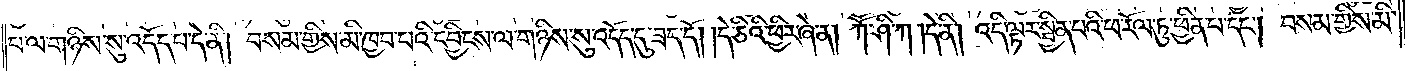པ་ལ་གཉིས་སུ་འདོད་པ་ནི། བསམ་གྱིས་མི་ཁྱབ་པའི་དབྱིངས་ལ་གཉིས་སུ་འདོད་དུ་ཟད་དོ། །དེ་ཅིའི་ཕྱིར་ཞེ་ན། ཀཽ་ཤི་ཀ །དེ་ནི། འདི་ལྟར་སྦྱིན་པའི་ཕ་རོལ་ཏུ་ཕྱིན་པ་དང༌། བསམ་གྱིས་མི་
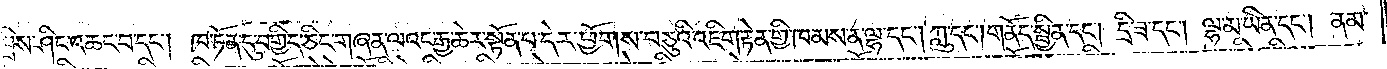བྲིས་ཤིང་འཆང་བ་དང༌། ཁ་ཏོན་དུ་བགྱིད་ཅིང་གཞན་ལའང་རྒྱ་ཆེར་སྟོན་པ་དེར་ཕྱོགས་བཅུའི་འཇིག་རྟེན་གྱི་ཁམས་ན་ལྷ་དང༌། ཀླུ་དང༌། གནོད་སྦྱིན་དང༌། དྲི་ཟ་དང༌། ལྷ་མ་ཡིན་དང༌། ནམ་
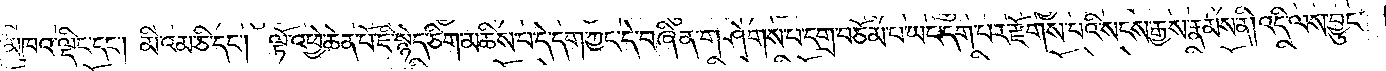མཁའ་ལྡིང་དང༌། མི་འམ་ཅི་དང༌། ལྟོ་འཕྱེ་ཆེན་པོ་ཇི་སྙེད་ཅིག་མཆིས་པ་དེ་དག་ཀྱང་དེ་བཞིན་གཤེགས་པ་དགྲ་བཅོམ་པ་ཡང་དག་པར་རྫོགས་པའི་སངས་རྒྱས་རྣམས་ནི། འདི་ལས་བྱུང་
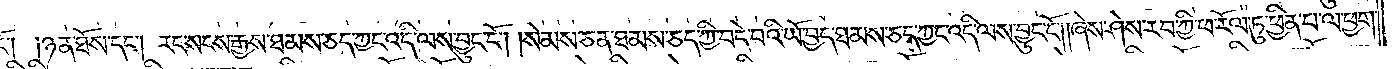ངོ༌༑ ༑ཉན་ཐོས་དང༌། རང་སངས་རྒྱས་ཐམས་ཅད་ཀྱང་འདི་ལས་བྱུང་ངོ༌། །སེམས་ཅན་ཐམས་ཅད་ཀྱི་བདེ་བའི་ཡོ་བྱད་ཐམས་ཅད་ཀྱང་འདི་ལས་བྱུང་ངོ༌། །ཞེས་ཤེས་རབ་ཀྱི་ཕ་རོལ་ཏུ་ཕྱིན་པ་ལ་ཕྱག་
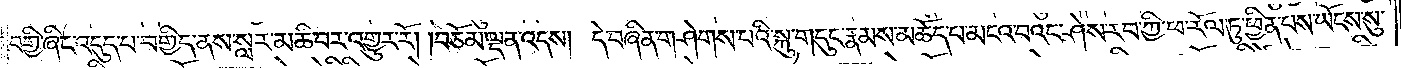བགྱི་ཞིང་འདུད་པ་བགྱིས་ནས་སླར་མཆི་བར་འགྱུར་རོ། །བཅོམ་ལྡན་འདས། དེ་བཞིན་གཤེགས་པའི་སྐུ་གདུང་རྣམས་མཆོད་པ་མངའ་བའང་ཤེས་རབ་ཀྱི་ཕ་རོལ་ཏུ་ཕྱིན་པས་ཡོངས་སུ་
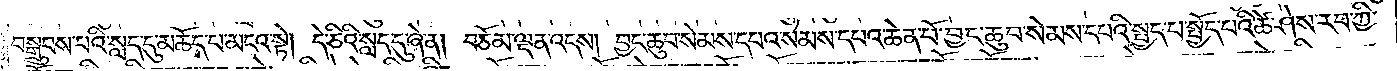བསྒྲུབས་པའི་སླད་དུ་མཆོད་པ་མངའ་སྟེ། དེ་ཅིའི་སླད་དུ་ཞེ་ན། བཅོམ་ལྡན་འདས། བྱང་ཆུབ་སེམས་དཔའ་སེམས་དཔའ་ཆེན་པོ་བྱང་ཆུབ་སེམས་དཔའི་སྤྱད་པ་སྤྱོད་པའི་ཚེ་ཤེས་རབ་ཀྱི་
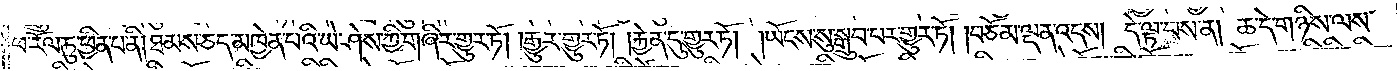ཕ་རོལ་ཏུ་ཕྱིན་པ་ནི། ཐམས་ཅད་མཁྱེན་པའི་ཡེ་ཤེས་ཀྱི་གཞིར་གྱུར་ཏོ། །རྒྱུར་གྱུར་ཏོ། །རྐྱེན་དུ་གྱུར་ཏོ། །ཡོངས་སུ་བསྒྲུབ་པར་གྱུར་ཏོ། །བཅོམ་ལྡན་འདས། དེ་ལྟ་བས་ན། ཆ་དེ་གཉིས་ལས་
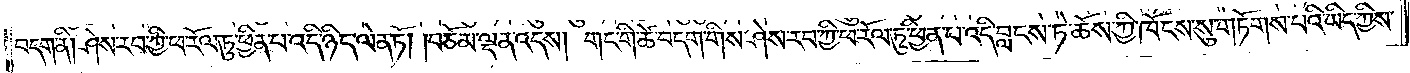བདག་ནི། ཤེས་རབ་ཀྱི་ཕ་རོལ་ཏུ་ཕྱིན་པ་འདི་ཉིད་ལེན་ཏོ། །བཅོམ་ལྡན་འདས། གང་གི་ཚེ་བདག་གིས་ཤེས་རབ་ཀྱི་ཕ་རོལ་ཏུ་ཕྱིན་པ་འདི་བླངས་ཏེ་ཆོས་ཀྱི་ཁོངས་སུ་གཏོགས་པའི་ཡིད་ཀྱིས་
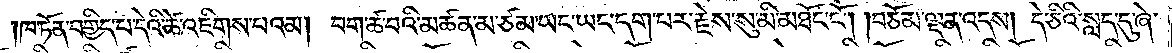ཁ་ཏོན་བགྱིད་པ་དེའི་ཚེ་འཇིགས་པའམ། བག་ཚ་བའི་མཚན་མ་ཙམ་ཡང་ཡང་དག་པར་རྗེས་སུ་མི་མཐོང་ངོ༌། །བཅོམ་ལྡན་འདས། དེ་ཅིའི་སླད་དུ་ཞེ་
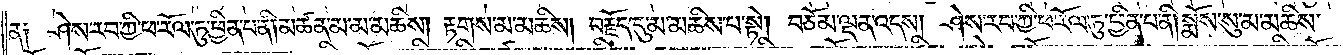ན༑ ཤེས་རབ་ཀྱི་ཕ་རོལ་ཏུ་ཕྱིན་པ་ནི་མཚན་མ་མ་མཆིས། རྟགས་མ་མཆིས། བརྗོད་དུ་མ་མཆིས་པ་སྟེ། བཅོམ་ལྡན་འདས། ཤེས་རབ་ཀྱི་ཕ་རོལ་ཏུ་ཕྱིན་པ་ནི་སྨོས་སུ་མ་མཆིས་
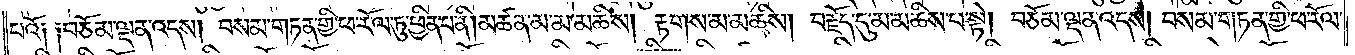པའོ༑ ༑བཅོམ་ལྡན་འདས། བསམ་གཏན་གྱི་ཕ་རོལ་ཏུ་ཕྱིན་པ་ནི་མཚན་མ་མ་མཆིས། རྟགས་མ་མཆིས། བརྗོད་དུ་མ་མཆིས་པ་སྟེ། བཅོམ་ལྡན་འདས། བསམ་གཏན་གྱི་ཕ་རོལ་
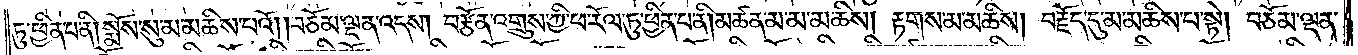ཏུ་ཕྱིན་པ་ནི། སྨོས་སུ་མ་མཆིས་པའོ། །བཅོམ་ལྡན་འདས། བརྩོན་འགྲུས་ཀྱི་ཕ་རོལ་ཏུ་ཕྱིན་པ་ནི། མཚན་མ་མ་མཆིས། རྟགས་མ་མཆིས། བརྗོད་དུ་མ་མཆིས་པ་སྟེ། བཅོམ་ལྡན་
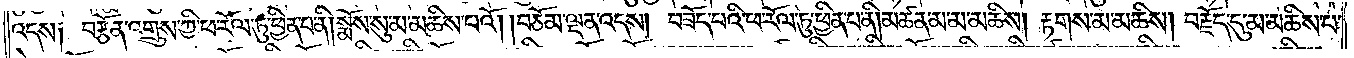འདས༑ བརྩོན་འགྲུས་ཀྱི་ཕ་རོལ་ཏུ་ཕྱིན་པ་ནི་སྨོས་སུ་མ་མཆིས་པའོ། །བཅོམ་ལྡན་འདས། བཟོད་པའི་ཕ་རོལ་ཏུ་ཕྱིན་པ་ནི་མཚན་མ་མ་མཆིས། རྟགས་མ་མཆིས། བརྗོད་དུ་མ་མཆིས་པ་
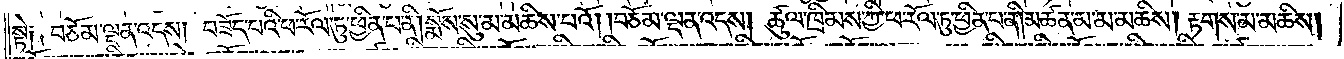སྟེ༑ བཅོམ་ལྡན་འདས། བཟོད་པའི་ཕ་རོལ་ཏུ་ཕྱིན་པ་ནི། སྨོས་སུ་མ་མཆིས་པའོ། །བཅོམ་ལྡན་འདས། ཚུལ་ཁྲིམས་ཀྱི་ཕ་རོལ་ཏུ་ཕྱིན་པ་ནི་མཚན་མ་མ་མཆིས། རྟགས་མ་མཆིས།
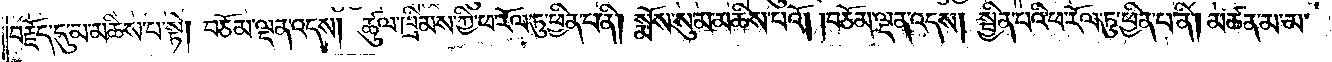བརྗོད་དུ་མ་མཆིས་པ་སྟེ། བཅོམ་ལྡན་འདས། ཚུལ་ཁྲིམས་ཀྱི་ཕ་རོལ་ཏུ་ཕྱིན་པ་ནི། སྨོས་སུ་མ་མཆིས་པའོ། །བཅོམ་ལྡན་འདས། སྦྱིན་པའི་ཕ་རོལ་ཏུ་ཕྱིན་པ་ནི། མཚན་མ་མ་
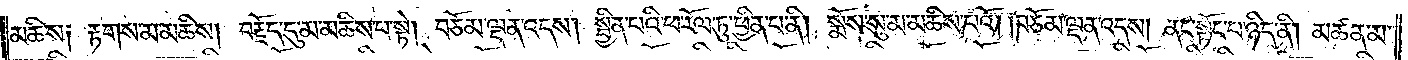མཆིས། རྟགས་མ་མཆིས། བརྗོད་དུ་མ་མཆིས་པ་སྟེ། བཅོམ་ལྡན་འདས། སྦྱིན་པའི་ཕ་རོལ་ཏུ་ཕྱིན་པ་ནི། སྨོས་སུ་མ་མཆིས་པའོ། །བཅོམ་ལྡན་འདས། ནང་སྟོང་པ་ཉིད་ནི། མཚན་མ་
